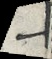七
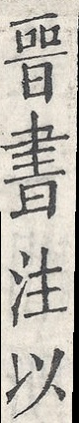晉書注以
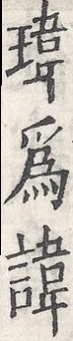瑋為諱
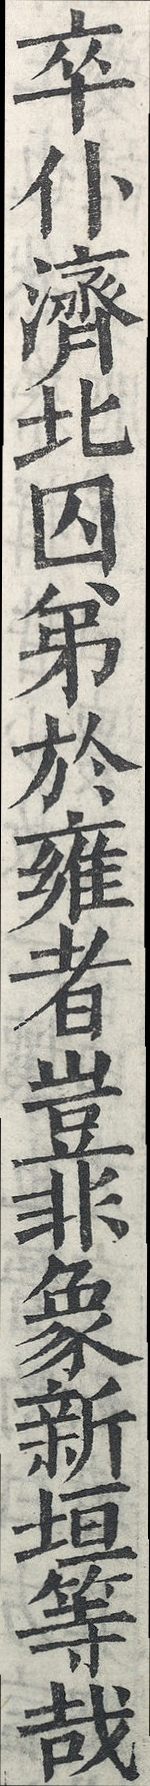卒仆濟北囚弟於雍者豈非象新垣等哉
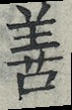善
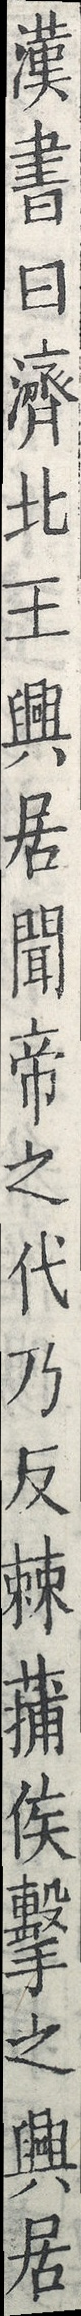漢書曰濟北王興居聞帝之代乃反棘蒱侯擊之興居
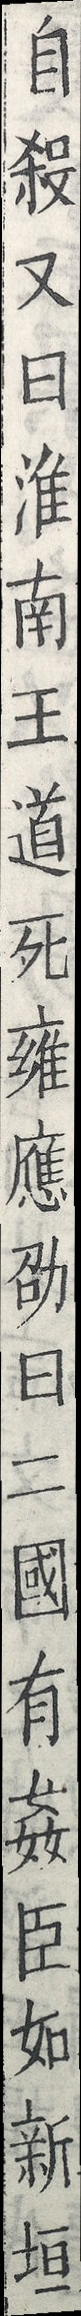自殺又曰淮南王道死雍應劭曰二國有姦臣如新垣
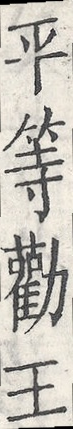平等勸王
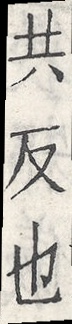共反也
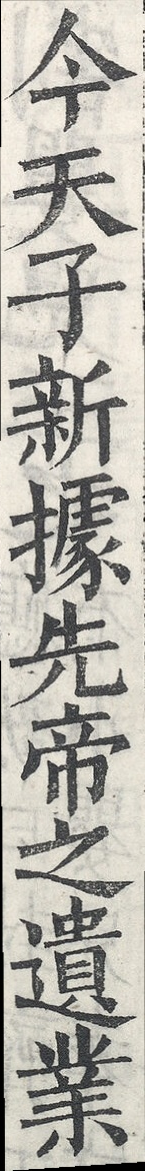今天子新據先帝之遺業
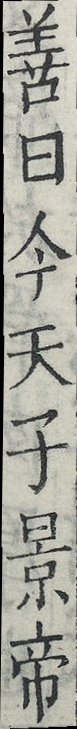善曰今天子景帝
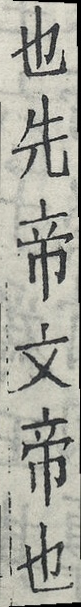也先帝文帝也
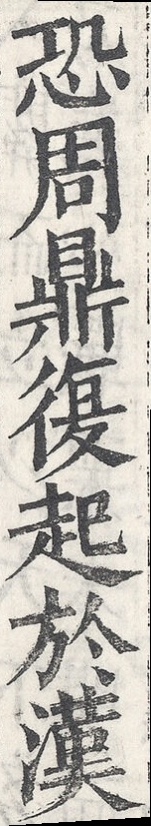恐周鼎復起於漢
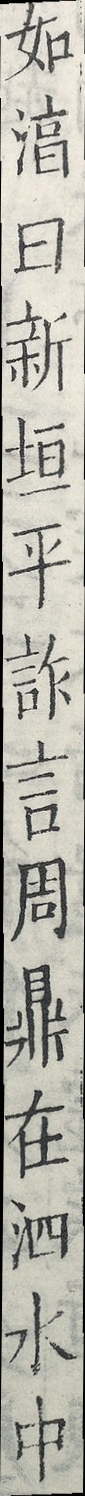如湻曰新垣平詐言周鼎在泗水中
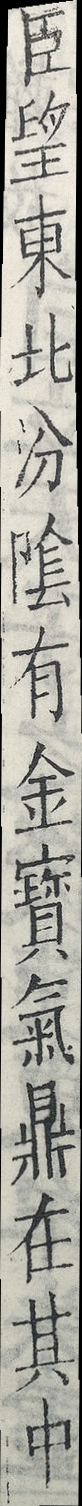臣望東北汾陰有金寶氣鼎在其中
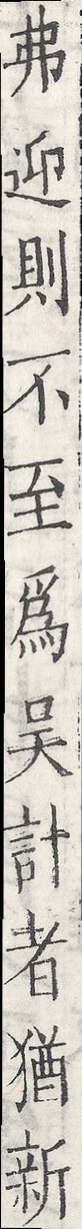弗迎則不至為吳計者猶新
